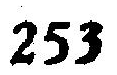253
